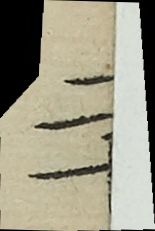二十
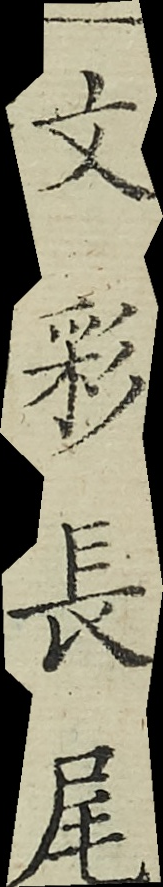文彩長尾
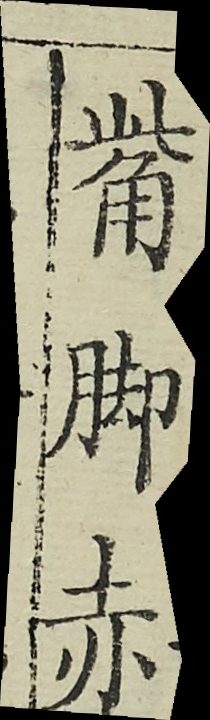觜脚赤
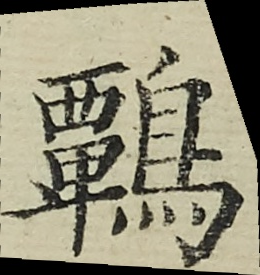鷣
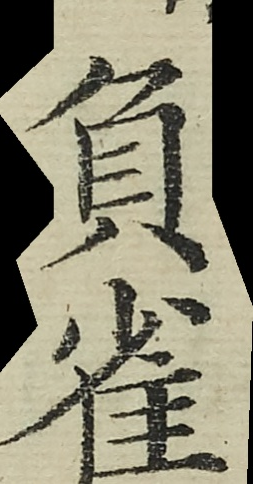負雀
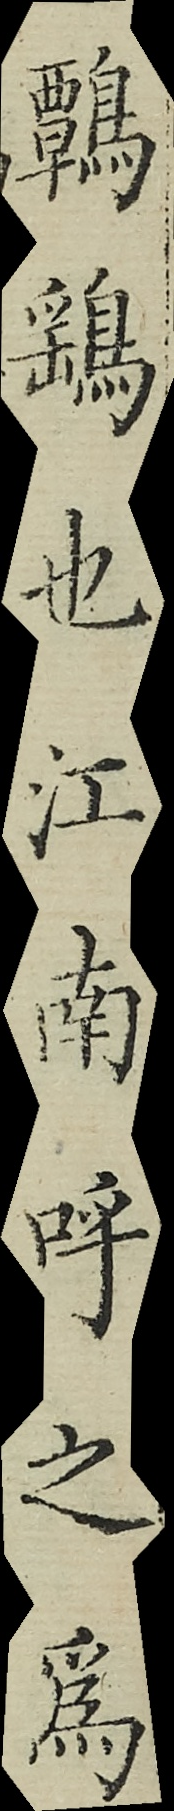鷣鷂也江南呼之為
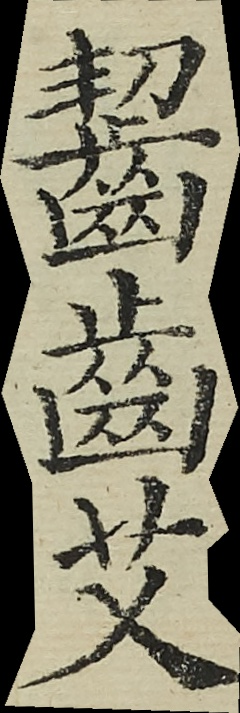齧齒艾
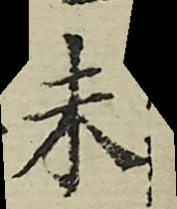未
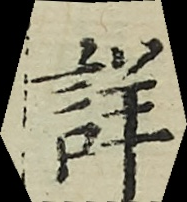詳
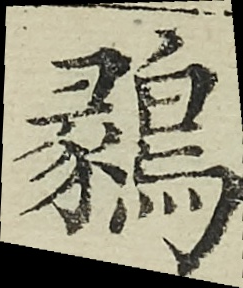鶨
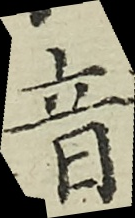音
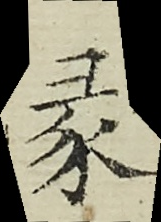彖
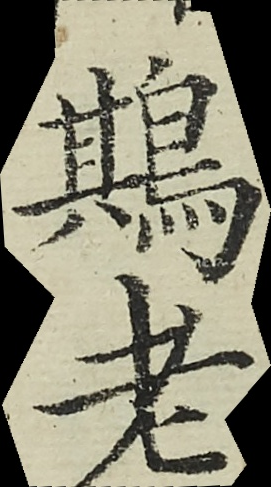䳢老
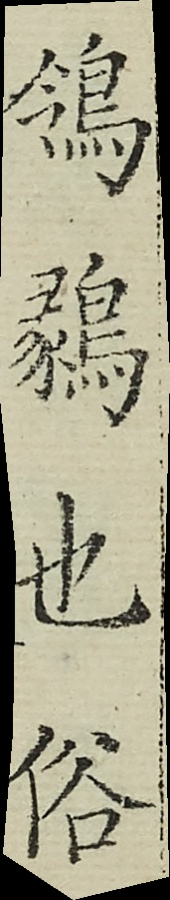鴒鶨也俗
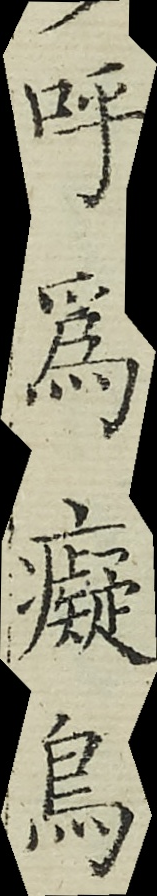呼為癡鳥
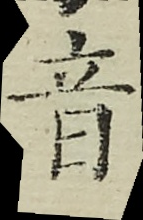音
